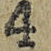4
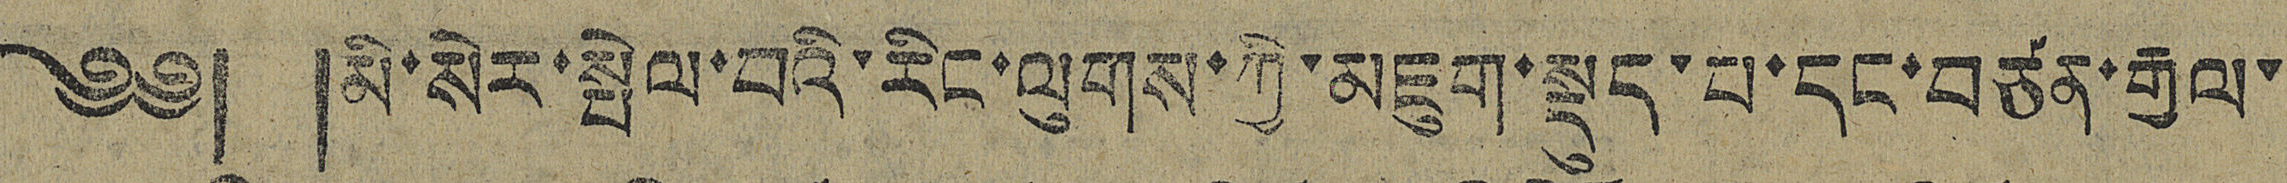༄༅། །མི་སེར་སྤེལ་བའི་རིང་ལུགས་ཀྱི་མཇུག་སྡུད་པ་དང་བཙན་རྒྱལ་
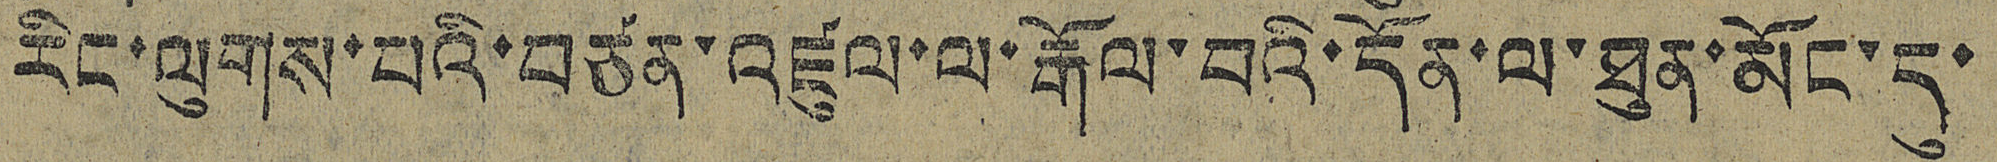རིང་ལུགས་པའི་བཙན་འཛུལ་ལ་རྒོལ་བའི་དོན་ལ་ཐུན་མོང་དུ་
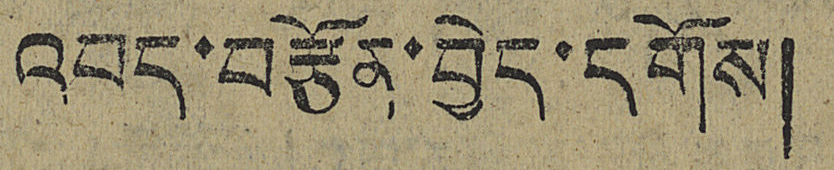འབད་བརྩོན་བྱེད་དགོས།
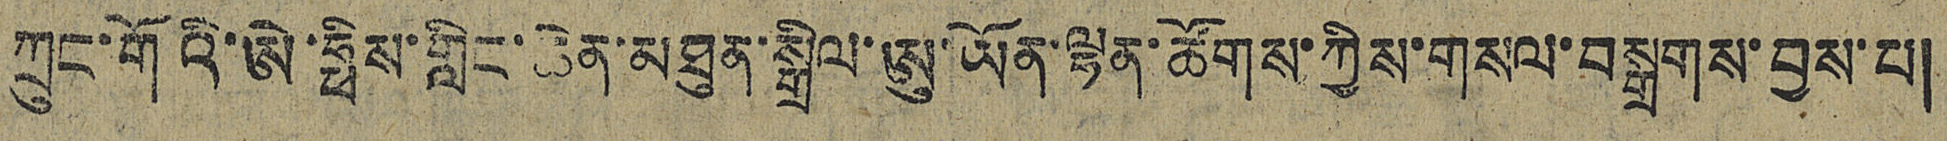ཀྲུང་གོའི་ཨེ་ཧྥིས་གླིང་ཆེན་མཐུན་སྒྲིལ་ཨུ་ཡོན་ལྷན་ཚོགས་ཀྱིས་གསལ་བསྒྲགས་བྱས་པ།
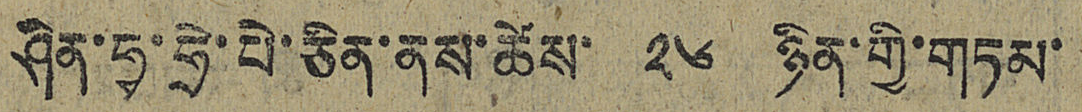ཤིན་ཧྭ་ཧྲེ་པེ་ཅིན་ནས་ཚོས་ ༢༦ ཉིན་གྱི་གཏམ་
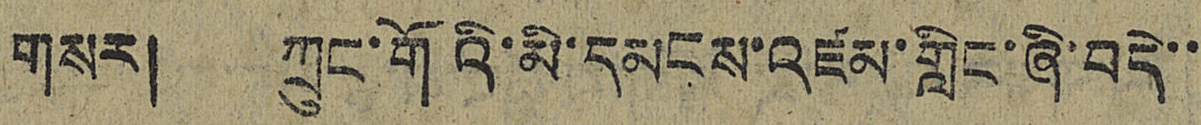གསར། ཀྲུང་གོའི་མི་དམངས་འཛམ་གླིང་ཞི་བདེ་་
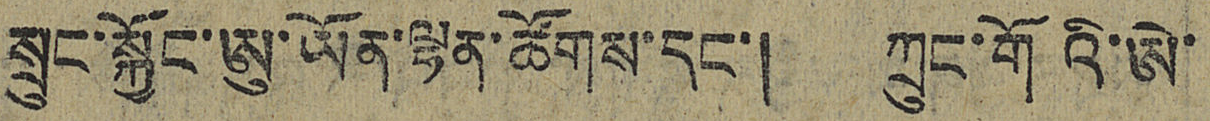སྲུང་སྐྱོང་ཨུ་ཡོན་ལྷན་ཚོགས་དང་། ཀྲུང་གོའི་ཨེ་
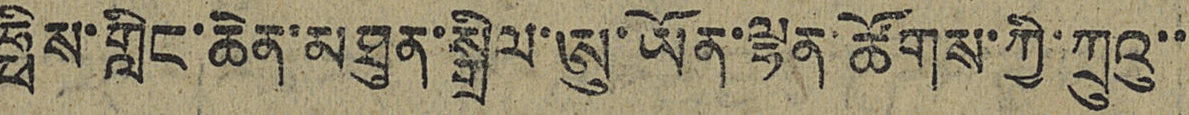ཧྥིས་གླིང་ཆེན་མཐུན་སྒྲིལ་ཨུ་ཡོན་ལྷན་ཚོགས་ཀྱི་ཀྲུའུ་་
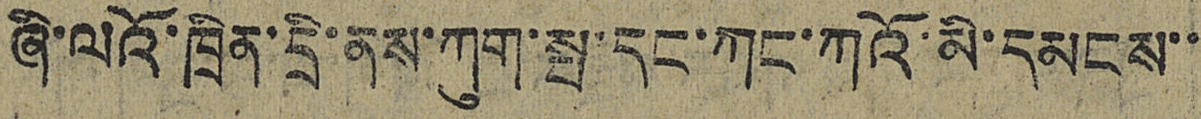ཞི་ལའོ་ཁྲིན་དྲི་ནས་ཀུག་སྤ་དང་ཀང་ཀའོ་མི་དམངས་་
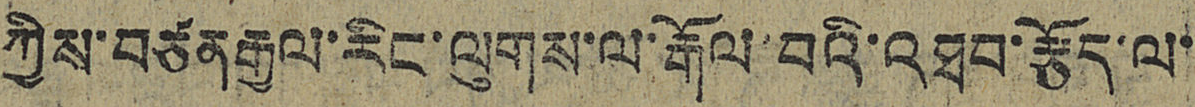ཀྱིས་བཙན རྒྱལ་རིང་ལུགས་ལ་རྒོལ་བའི་འཐབ་རྩོད་ལ་
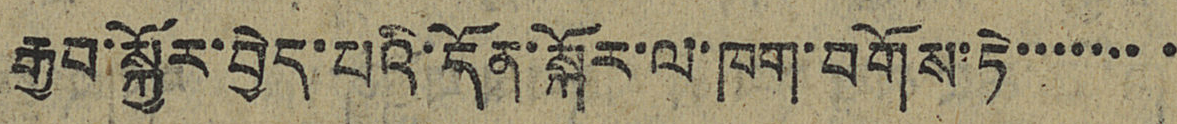རྒྱབ་སྐྱོར་བྱེད་པའི་དོན་སྐོར་ལ་ཁག་བགོས་ཏེ་་་་་་་་
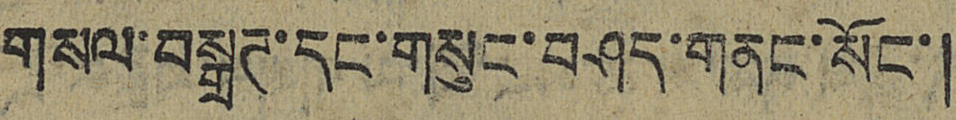གསལ་བསྒྲཊ་དང་གསུང་བཤད་གནང་སོང་།
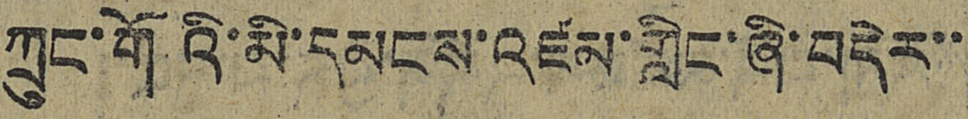ཀྲུང་གོའི་མི་དམངས་འཛམ་གླིང་ཞི་བདེར་་
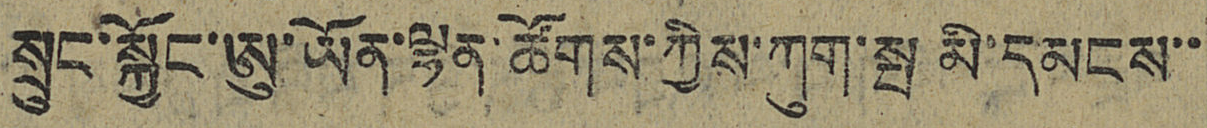སྲུང་སྐྱོང་ཨུ་ཡོན་ལྷན་ཚོགས་ཀྱིས་ཀུག་སྤ མི་དམངས་་
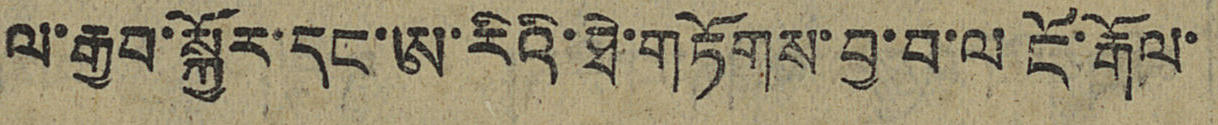ལ་རྒྱབ་སྐྱོར་དང་ཨ་རིའི་ཐེ་གཏོགས་བྱ་བ་ལ ངོ་རྒོལ་
